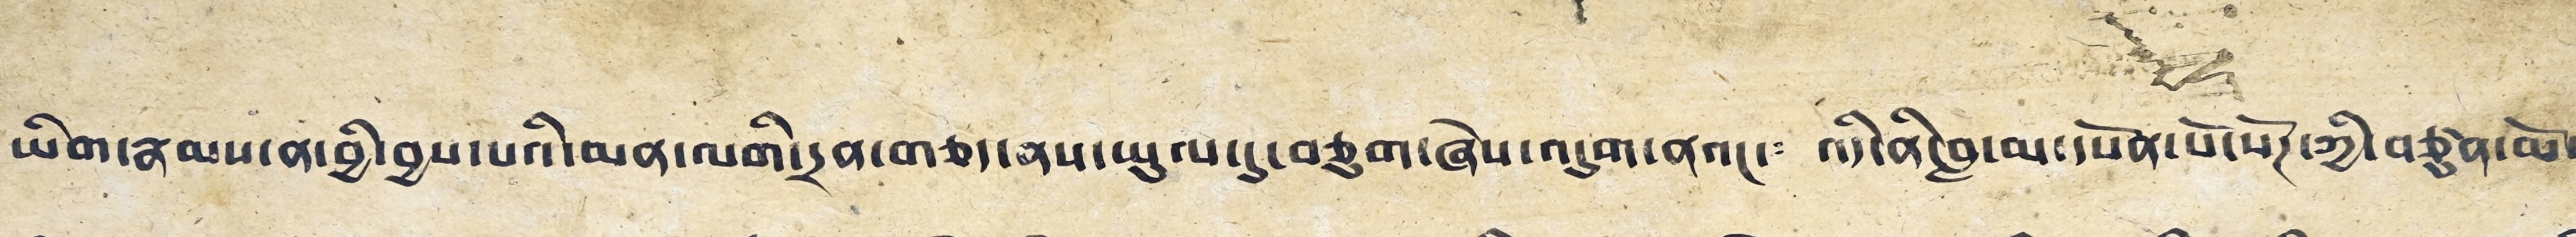ཡིག་རྣམས་ན་བྱི་བྱས་པའི་མན་ལགི་དྲན་གཅད་ནས་ཡུལ་དུ་བཅུག་ཞེས་འདུག་ནའང་༴ འདི་ནི་བླ་མ་དཔོན་པོ་སོཊ་ཀྱི་བཙུན་མོ་ལ༴
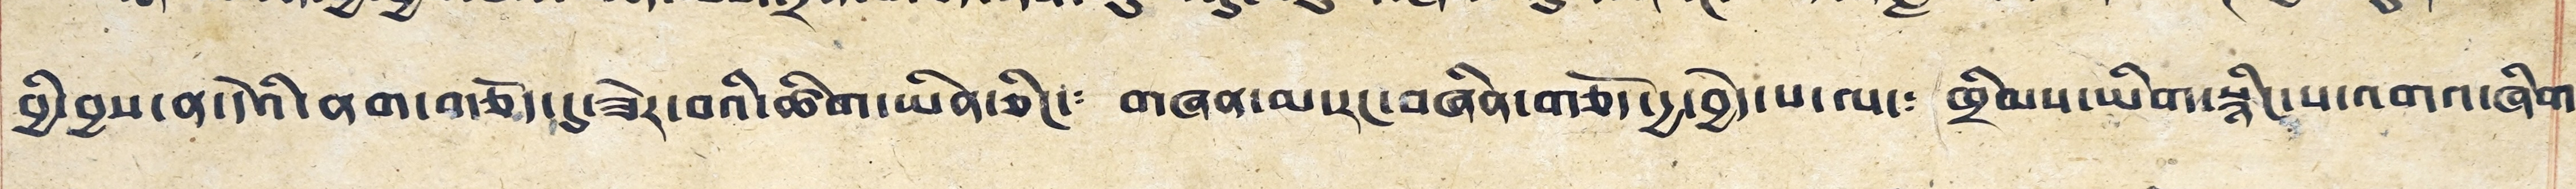བྱི་བྱས་ན་དེའི་ནག་གཅོད་དུ་ཟེར་བའི་ཚིག་ཡིན་ཅིང་༴ གཞན་མ་རང་བཞིན་གཅོད་དྱ་བྱེད་པ་ལ་༴ ཁྲིམས་ཡིག་སྙིང་པ་འགའ་ཞིག༴
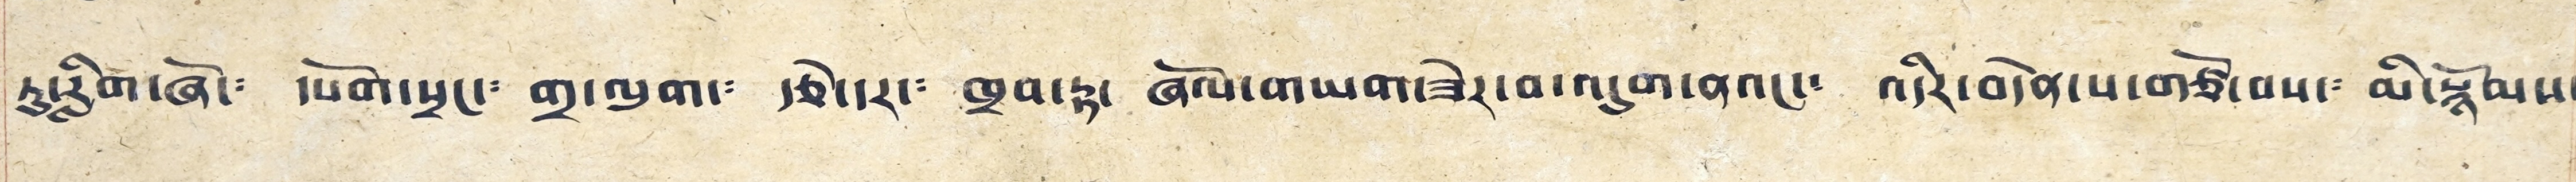ཏུ་རླིག་ཞོ་༴ དཔོག་སྲང་༴ གྲ་ལུག་༴ རྩེ་དར་༴ ཁྲབ་རྟ་༴ ཞོལ་གཡག་ཟེར་བ་འདུག་ནའང་༴ འདིར་བདེན་པ་གཙོ་བས་༴ མི་རྙོམས་
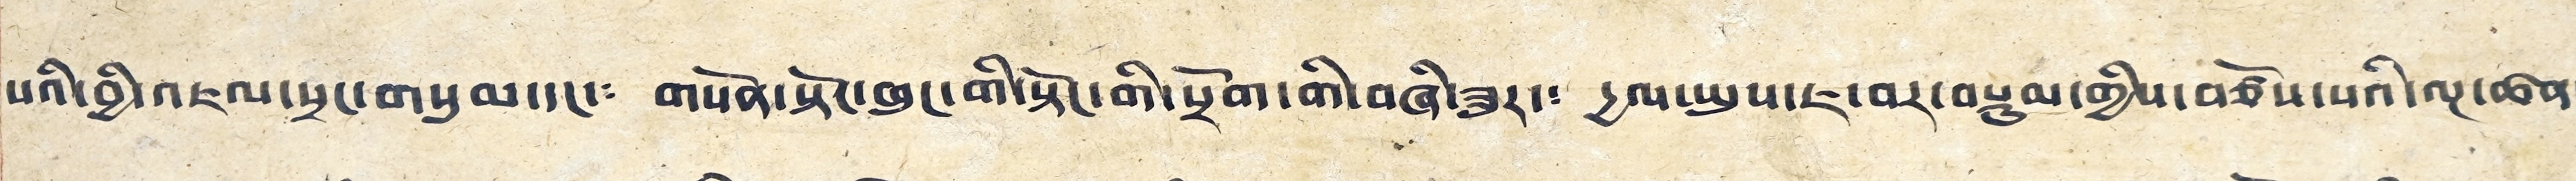པའི་བྱི་འཇལ་སྲང་གསུམ་དང་༴ གསོན་སྟོང་ཁུང་གི་སྟོང་གི་སྲོག་གི་བཞི་ཟུར་༴ དྱལ་ཡུས་ཇ་བར་བསྟུམ་གྱིས་བཙོས་པའི་ལྔ་ཚན་
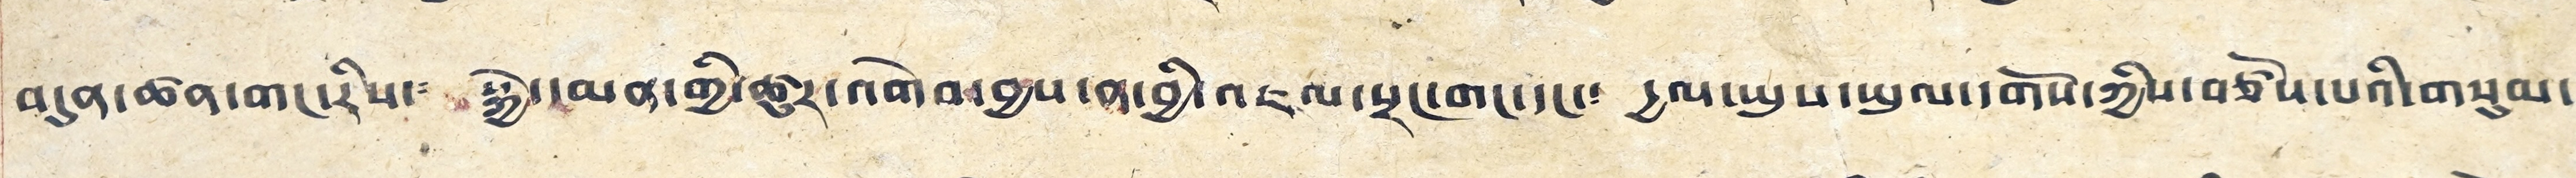བདུན་ཚན་གང་རིས་༴ སྐྱེ་དམན་གྱི་ཚུར་འགེམ་བྱས་ན་བྱི་འཇལ་སྲང་གང་དང་༴ དྱལ་ཡུས་ཡུལ་དགོས་ཀྱིས་བཙོས་པའི་གསུམ་
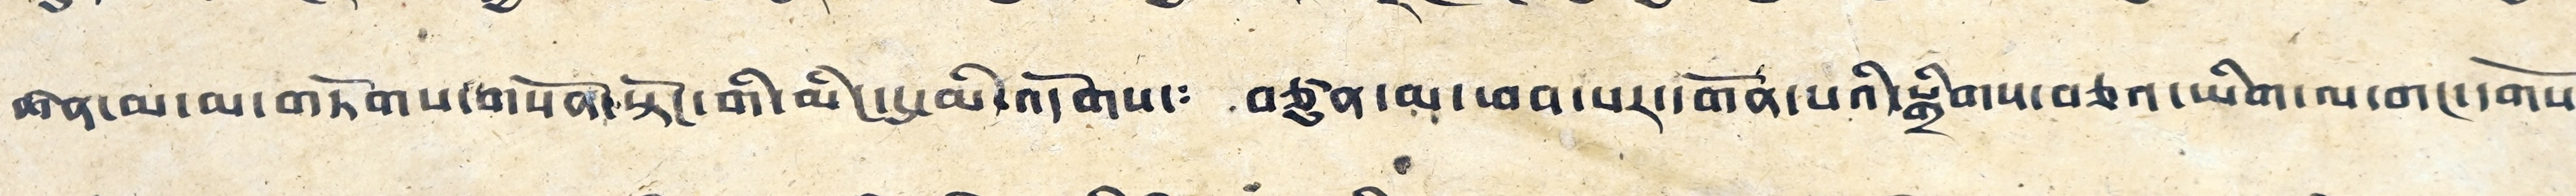ཚན་མ་མ་གཏོགས་གསོན་སྟོང་གི་མིང་དུ་མི་འདོགས་༴ བཙུན་མ་ཕབ་པར་དགོན་པའི་སྒྲིགས་བཅའ་ཡིག་ལ་གང་དགོས་
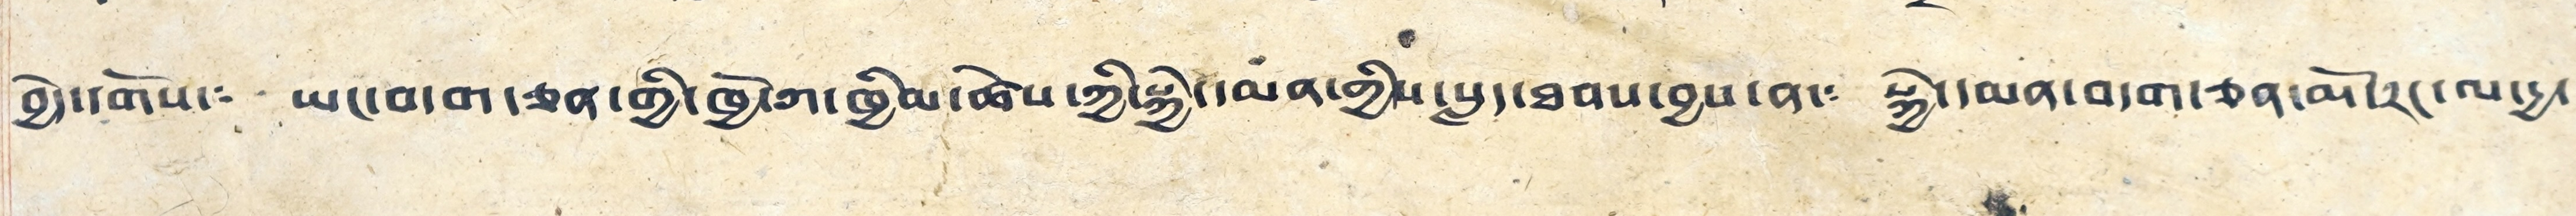བྱེད་དགོས་༴ ཡང་བདག་ཅན་གྱི་ཁྱོ་ཀ་ཁྱིམ་ཚེས་ཀྱི་སྐྱེ་དམན་གྱིས་སླད་ཐབས་བྱས་ན་༴ སྐྱེ་དམན་བདག་ཅན་མོ་རང་ལ་དྱ་
